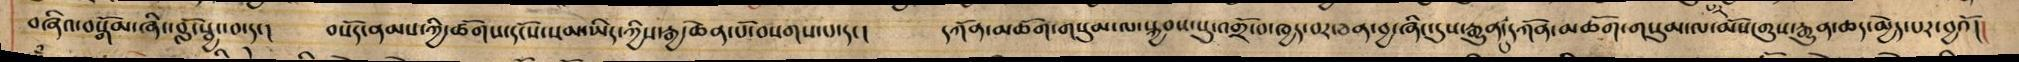བཞིའ་བསྒམ་ཞོངབློ་སྦྱོང་བ་དང།    བསོད་ནམས་ཀྱི་ཚོགས་དངོས་སམ་ཡིད་ཀྱིས་རྒྱ་ཆེན་པོ་བསགས་པ་དང།   དཀོན་མཆོག་གསུམ་ལ་སྐྱབས་སུ་འགྲོ་བ་ཁྱད་པར་ཅན་བྱ་ཞིང་དུས་རྒྱུན་དུ་དཀོན་མཆོག་གསུམ་ལ་མོས་གུས་རྒྱུན་ཆད་མྱེད་པར་བྱའོ།།
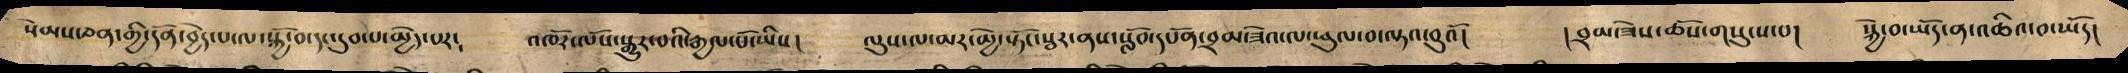སེམས་ཅན་གྱི་དོན་བྱེད་པ་ལ་སྐྱོ་བ་དང་དུབ་པ་མྱེད་པར་ འཁོར་ལོས་སྒྱུར་བའི་རྒྱལ་པོ་ཡིས། ལུས་ལ་མར་མྱེ་སྟོང་སྦར་ནས་སློབ་དཔོན་བྲམ་ཟེའ་ལ་ཕུལ་བ་ལྟ་བུའོ། །བྲམ་ཟེས་ཆོས་གསུངས་པ། སྐྱེ་བ་ཡོད་ན་འཆིའ་བ་ཡོད།
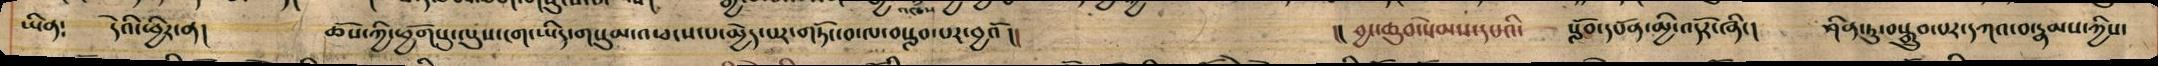ཡིན་ དེའི་ཕྱིར་ན། ཆོས་ཀྱི་ཕྱོགསུ་ལུས་ངག་ཡིད་གསུམ་འཕངས་པ་མྱེད་པར་གཏོང་བ་ལ་བསླབ་པར་བྱའོ།། །། བྱང་ཆུབ་སེམས་དཔའི་ སློབ་དཔོན་མྱི་འདོར་ཞིང། ཤིན་ཏུ་བསྒྲུབ་པར་དཀའ་བ་རྣམས་ཀྱིས་
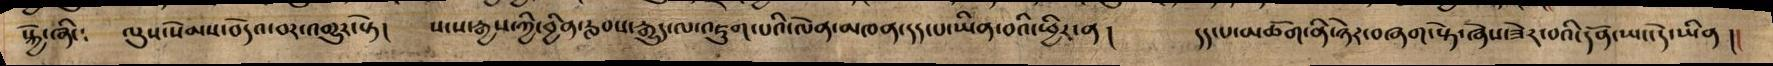སྐྱེ་ཞིང ལུས་སེམས་བདེའ་བར་འགྱུར་སྟེ། སངས་རྒྱས་ཀྱི་བྱིན་རླབས་རྒྱུད་ལ་འཇུག་པའི་ལེན་མཁན་དད་པ་ཡིན་བའི་ཕྱིར་ན། དད་པ་མཆོག་ནི་ཉེར་བཞག་སྟེ་ཞེས་ཟེར་བའི་དོན་ཡང་དེ་ཡིན །།
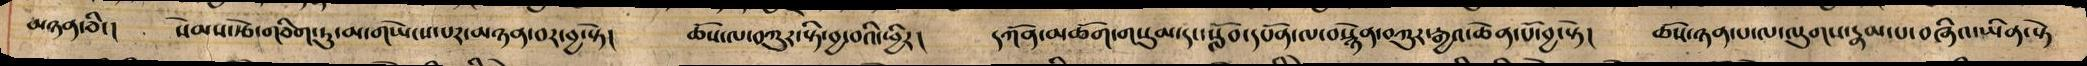མཉན་ཅིང། སེམས་རྩེ་གཅིག་ཏུ་མ་གཡེངས་པར་མཉན་བར་བྱས་བྱ་སྟེ། ཆོས་ལ་བཀུར་སྟི་བྱ་བའི་ཕྱིར། དཀོན་མཆོག་གསུམ་དང་སློབ་དཔོན་ལ་བསྙེན་བཀུར་རྒྱའ་ཆེན་པོ་བྱ་སྟེ། ཆོས་ཉན་པ་ལ་ལུགས་རྣམ་པ་བཞིའ་ཡིན་སྟེ
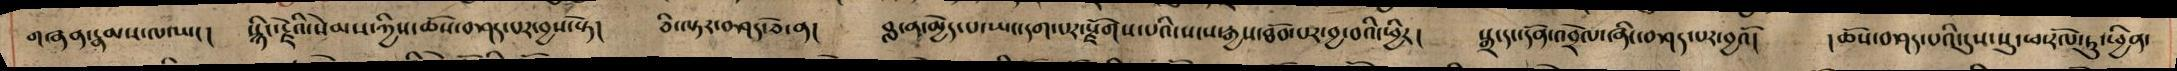གཞན་རྣམས་ལ་ཡང། སྙིང་རྗེའི་སེམས་ཀྱིས་ཆོས་བཤད་པར་བྱས་སྟེ། ཅི་ལྟར་བཤད་ཅེ་ན། བླ་ན་མྱེད་པ་ཡང་དག་པར་སྫོགས་པའི་སངས་རྒྱས་ཐོབ་པར་བྱ་བའི་ཕྱིར། སྒྲ་དང་དོན་འབྲེལ་ཞིང་བཤད་པར་བྱའོ། །ཆོས་བཤད་པའི་དུས་སུ་ཕ་རོལ་ཏུ་ཕྱིན་
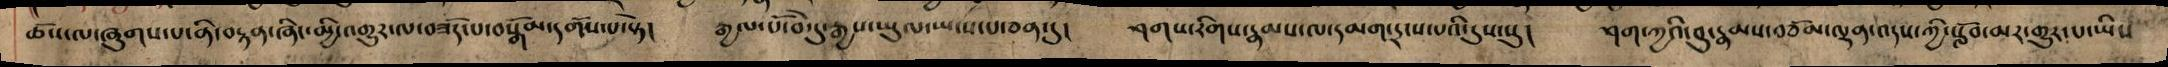ཆོས་ལ་ཞུགས་པ་ནི་བརྟན་ཞིང་མྱི་འགྱུར་ལ་བཟོད་པ་བསྒོམ་དགོས་པ་སྟེ། རྒྱལ་པོ་བེ་དུ་རྒྱས་ཡུལ་ཡངས་པ་ཅན་དུ། ཤགས་རིགས་རྣམས་ལ་དམག་དྲངས་པའི་དུས་སུ། ཤག་ཀྱའི་བུ་རྣམས་བཅོམ་ལྡན་འདས་ཀྱི་སློབ་མར་གྱུར་པ་ཡིས
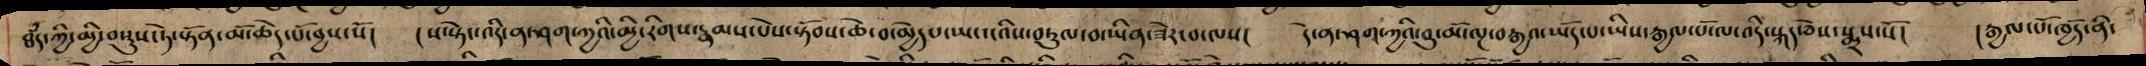ཐཾད་ཀྱི་མྱི་བསྡུས་ཏེ་སྟོན་མོ་ཆེད་པོ་བྱས་སོ།   ། ས་སྟེང་འདི་ན་ཤག་ཀྱའི་མྱི་རིགས་རྣམས་པོས་སྟོབས་ཆེ་བ་མྱེད་པ་ཡང་ངའིས་བཏུལ་བ་ཡིན་ཟེར་བ་ལས།   དེ་ན་ཤག་ཀྱའི་བུ་མོ་ལྔ་བརྒྱའ་ཡོད་པ་ཡིས་རྒྱལ་པོ་ལ་འདི་སྐད་ཅེས་སྨྲས་སོ།    ། རྒྱལ་པོ་ཁྱོད་ནི་
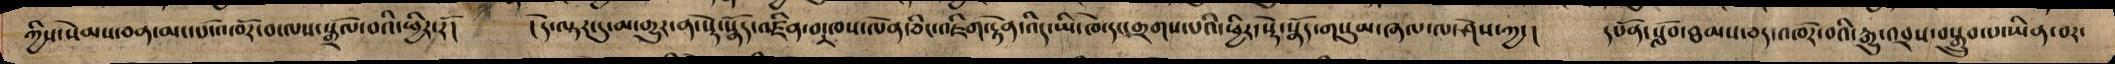ཀྱིས་སེམས་ཅན་མང་པོ་འཁོར་བ་ལས་སྒྲོལ་བའི་ཕྱིར་རོ། །དེ་ལྟར་དུ་མ་གྱུར་ན་སྡེ་སྣོད་འཛིན་བ་ཁས་ལེན་ཅིང་འཇིག་རྟེན་འདི་ཡི་ཁེ་དང་གྲགས་པའི་ཕྱིར་སྡེ་སྣོད་གསུམ་ཞལ་ལ་ཤེས་ཀྱང། དཔོན་སློབ་ཐམས་ཅད་འཁོར་བའི་རྒྱུ་འབྲས་བསྒྲུབ་པ་ཡིན་བར་
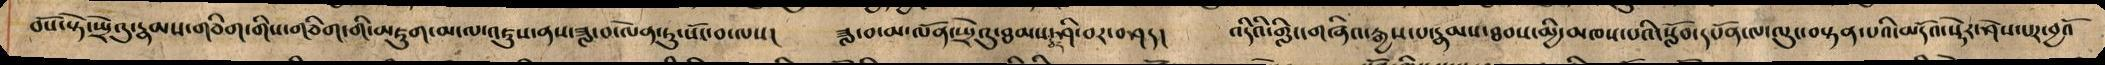བསོ་སྡེ་ཡྲོའུ་རྣམས་གཅིག་གིས་གཅིག་གི་མཇུག་མངལ་འཇུས་ནས་ཟླ་བ་ལོན་རུ་སོང་བ་ལས།  ཟླ་བ་ལོན་ཡྲེའུ་ཐམས་ཅད་ཤི་བར་བཤད།   འདིའི་གླིང་གཞིའ་རྒྱས་པ་རྣམས་ཐབས་མྱི་མཁས་པའི་སློབ་དཔོན་ལ་ལུང་བསྟན་པའི་མདོའ་སྡེར་ཤེས་པར་བྱའོ་
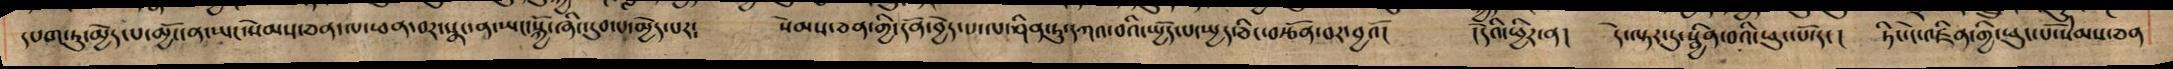དཔག་ཏུ་མྱེད་པ་མྱོང་ན་ཡང་སེམས་ཅན་ལ་ཕན་བར་སྣང་ན་ཡང་སྐྱོ་ཞིང་དུབ་པ་མྱེད་པར༴ སེམས་ཅན་གྱི་དོན་བྱེད་པ་ལ་ཤིན་ཏུ་དཀའ་བའི་སྤྱོད་པ་སྤྱད་ཅིང་བརྩོན་བར་བྱའོ། །དེའི་ཕྱིར་ན། དེ་ལྟར་དུ་སྦྱིན་བའི་ཕུང་པོ་དང། ཏེང་ངེ་འཛིན་གྱི་ཕུང་པོ་སེམས་ཅན
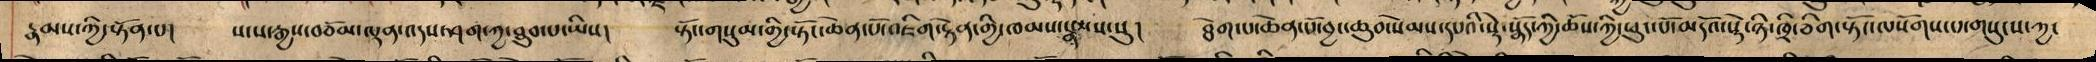རྣམས་ཀྱི་སྟོན་པ། སངས་རྒྱས་བཅོམ་ལྡན་འདས་ཤག་ཀྱ་ཐུབ་པ་ཡིས། སྟོང་གསུམ་གྱི་སྟོང་ཆེན་པོ་འཇིག་རྟེན་གྱི་ཁམས་རྣམས་སུ། ཐེག་པ་ཆེན་པོ་བྱང་ཆུབ་སེམས་དཔའི་སྡེ་སྣོད་ཀྱི་ཆོས་ཀྱི་ཕུང་པོ་མདོའ་སྡེ་ཉི་ཁྲི་ཅིག་སྟོང་ལསོགས་པ་གསུངས་ཀྱང
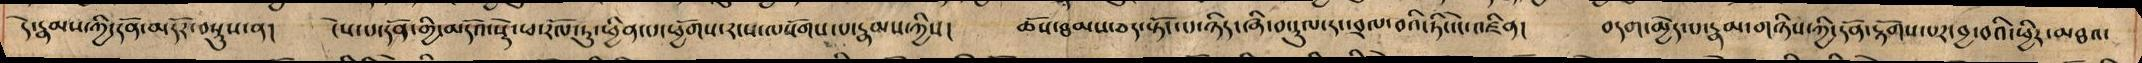དེ་རྣམས་ཀྱི་དོན་མདོར་བསྡུས་ན། ངེས་པ་དོན་གྱི་མདོའ་སྡེ་ཕ་རོལ་ཏུ་ཕྱིན་པ་ཕྱོགས་རངས་ལསོགས་པ་རྣམས་ཀྱིས། ཆོས་ཐམས་ཅད་སྟོང་པ་ཉིད་ཞི་བ་རྡུལ་དང་བྲལ་བའི་ཏིང་ངེ་འཛིན། བདག་མྱེད་པ་རྣམ་གཉིས་ཀྱི་དོན་རྟོགས་པར་བྱ་བའི་ཕྱིར་མཐའ་
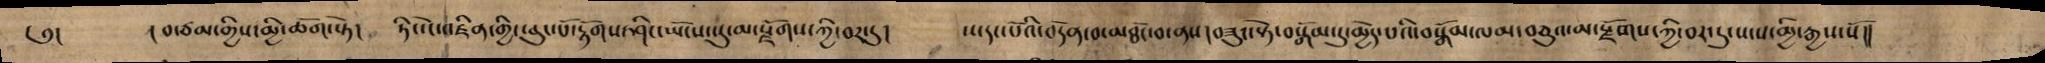༅། ། བ་ཙམ་གྱིས་ཥྱི་ཆོག་སྟེ། ཏིང་ངེ་འཛིན་གྱི་ཕུང་པོ་རྟོགས་ཤིང་ཡོངས་སུ་མ་སྫོགས་ཀྱི་བར་དུ། ས་དང་པོའི་བདེན་བ་མཐོང་བ་ནས་བཟུང་སྟེ་བསྒོམ་དུ་མྱེད་པའི་བསྒོམ་དུ་མྱེད་པའི་བསྒོམ་ལམ་བཅུའ་མ་སྫོགས་ཀྱི་བར་དུ་སངས་གྱི་རྒྱས་སོ།།
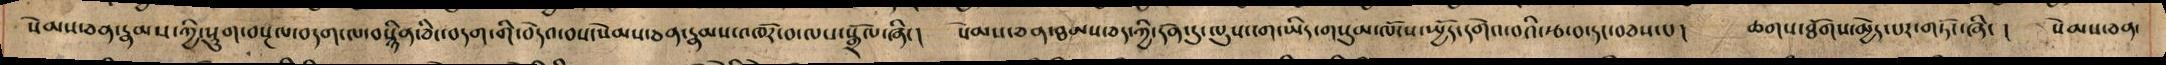སེམས་ཅན་རྣམས་ཀྱི་སྡུག་བསྔལ་བདག་ལ་བསྙིན་ཅིང་བདག་གི་བདེའ་བས་སེམས་ཅན་རྣམས་འཁོར་བ་ལས་སྒྲོལ་ཞིང། སེམས་ཅན་ཐམས་ཅད་ཀྱི་དོན་དུ་ལུས་ངག་ཡིད་གསུམ་ལོངས་སྤྱོད་དགེའ་བའི་རྩ་བ་དང་བཅས་པ། ཆགས་ཐོགས་མྱེད་པར་གཏོང་ཞིང ། སེམས་ཅན་
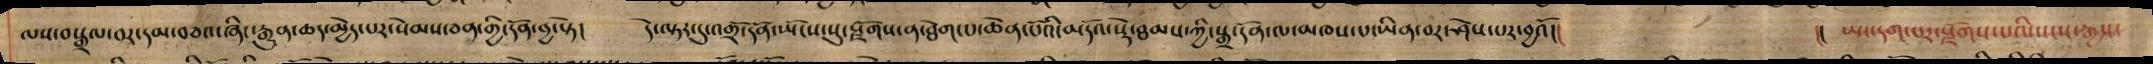ལས་བསྒྲལ་བར་དམ་བཅའ་ཞིང་རྒྱུན་ཆད་མྱེད་པར་སེམས་ཅན་གྱི་དོན་བྱ་སྟེ། དེ་ལྟར་དུ་འགྲོ་དོན་ཡོངས་སི་སྫོགས་ན་ཐེག་པ་ཆེན་པོའི་མདོའ་སྡེ་ཐམས་ཅད་ཀྱི་སྒྲ་དོན་ལ་མཁས་པ་ཡིན་བར་ཤེས་པར་བྱའོ།། །། ཡང་དག་པར་སྫོགས་པའི་སངས་རྒྱས་
